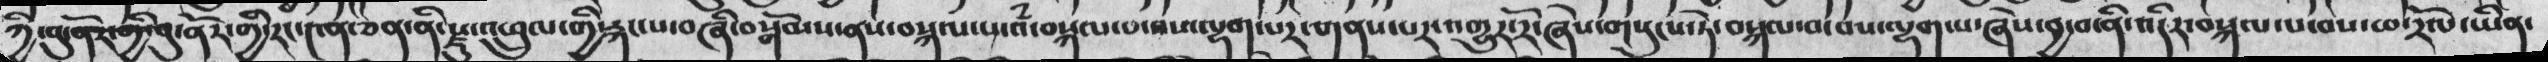ཀྱི་བུ་ནོར་གྱི་བུ་ནོར་གྱི་རང་༤ན་ཅན་ནི་སྫུ་འཕྲུལ་གྱི་རྐང་པ་བཞི་བསྒོམས་ནས་བསྐལ་པ་འཾ་བསྐལ་པ་བས་ལྷག་པར་གནས་པར་འགྱུར་རོ་ཞེས་གསུངས་ཏེ་བསྐལ་བ་བས་ལྷག་པ་ཞེས་བྱ་བ་ནི་འདིར་བསྐལ་པ་བས་ཕ་རོལ་ཡིན་
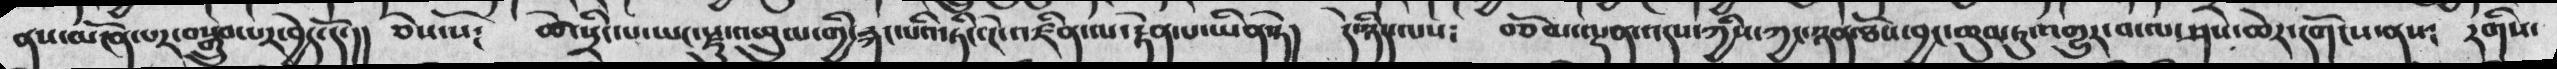ནས་མངོན་པར་བསྒྲུབ་པར་བྱེད་དོ་།། ཅེས་སོ༴  ཚེ་སྲིང་པ་ཡང་སྫུ་འཕྲུལ་གྱི་རྐང་པའི་ཏིང་ངེ་འཛིན་ལ་རྟེན་པ་ཡིན་ཏེ།  དེ་ཉིད་ལས༴  བཅོམ་ལྡན་འདས་ཀྱིས་ཀྱང་ཉན་ཐོས་བྱང་ཆུབ་ཏུ་འགྱུར་བ་ལ་ཤེས་ཆེར་དགོངས་ནས༴ རིགས་
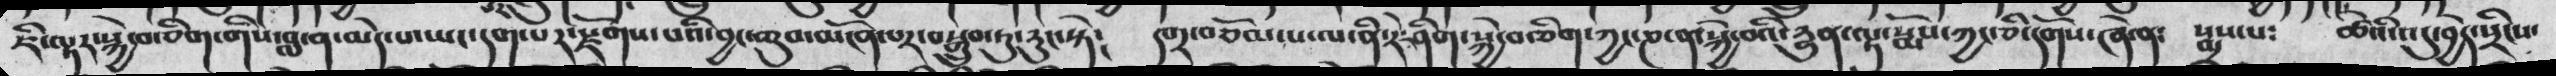ཇི་ལྟར་སྐྱེ་བ་ཅིག་གིས་བླ་ན་མེད་པ་ཡང་དག་པར་སྫོགས་པའི་བྱང་ཆུབ་མངོན་པར་བསྒྲུབ་ཏུ་རུང་སྟེ༴  དགྲ་བཅོམ་པ་ལ་ནི་རེ་ཤིག་སྐྱེ་བ་ཅིག་ཀྱང་ཎ་ན་སྐྱེ་བའི་རྱུན་ལྟ་སྨོས་ཀྱང་ཅི་དགོས་ཞེ་ན༴  སྨྲས་པ༴  ཚེའི་འདུ་བྱེད་སྲིངས་
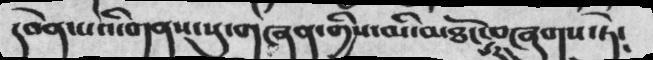དབེན་པའི་གནས་སུ་གཞན་གྱིས་མི་མཐོང་པར་བཞུགས་ཏེ༴
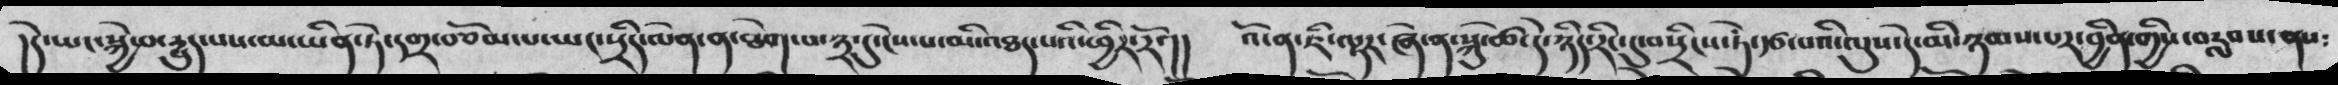།དེ་ཡང་སྐྱེ་བ་རྱུད་པས་མ་ཡིན་ཏེ་དགྲ་བཅོམ་པ་ཡང་སྲིད་ལེན་ན་ཐེག་པ་༣་དུ་ངེས་པ་མི་འཐད་པའི་ཕྱིར་རོ་།།  འོ་ན་ཇི་ལྟར་ཞེ་ན་སྐུ་ཚེ་དེ་ཉིད་རིང་དུ་བསྲིངས་ཏེ་རྩ་པའི་ལུས་དེ་མི་ཉམས་པ་བྱིན་གྱིས་བརླབས་ནས༴
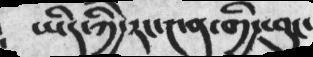ཡིད་ཀྱི་རང་༤ན་གྱི་ཕུང་
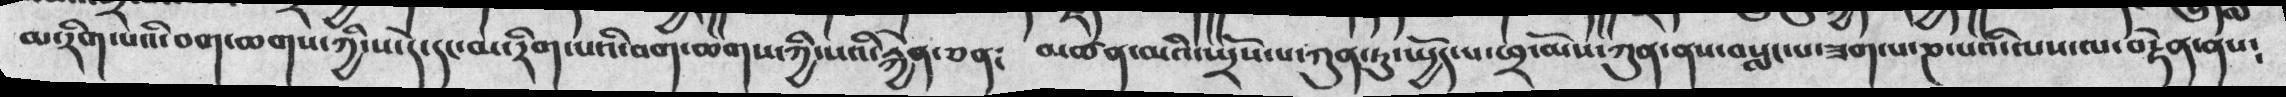མ་རིག་པའི་བག་ཆགས་ཀྱི་ས་དེ་དང་མ་རིག་པའི་བག་ཆགས་ཀྱི་སའི་རྐྱེན་ཅན༴ མཚན་མའི་སྤྲོས་པ་ཀུན་ཏུ་སྤྱོད་པ་ཕྲ་མོས་ཀུན་ནས་བསླང་པ་ཟག་པ་ཎ་པའི་ལས་ལ་བརྟེན་ནས༴
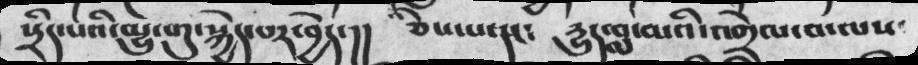སྲིད་པའི་མྱུ་གུ་སྐྱེད་པར་བྱེད་།། ཅེས་པ་དང༴ རྱུད་བླ་མའི་འགྲེལ་བ་ལས་
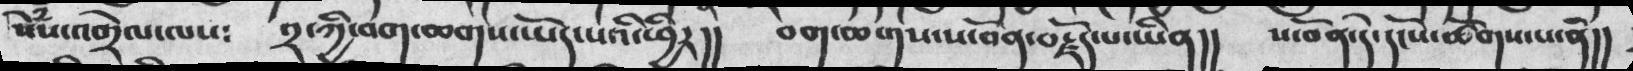སེཾས་འགྲེལ་ལས༴  ༢་ཀྱི་བག་ཆགས་ཡོད་པའི་ཕྱིར།།  བག་ཆགས་ས་བོན་བརྗོད་པ་ཡིན།།  ས་བོན་དེ་དངོས་ཚོགས་པ་ནི།།
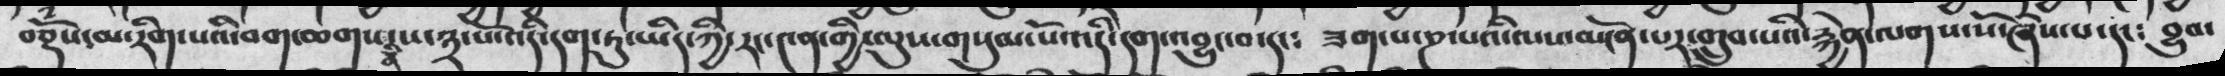བཅྡོས་མ་རི ག་པའི་བག་ཆགས་ནི་ས་༣་པོ་འདི་དག་ཏུ་ཡིད་ཀྱི་རང་༤ན་གྱི་ལུས་གསུམ་པོ་འདི་དག་འབྱུང་བ་དང༴ ཟག་པ་ཎ་པའི་ལས་མངོན་པར་གྲུབ་པའི་རྐྱེན་ལགས་སོ་ཞེས་པ་དང་བྱུབ་
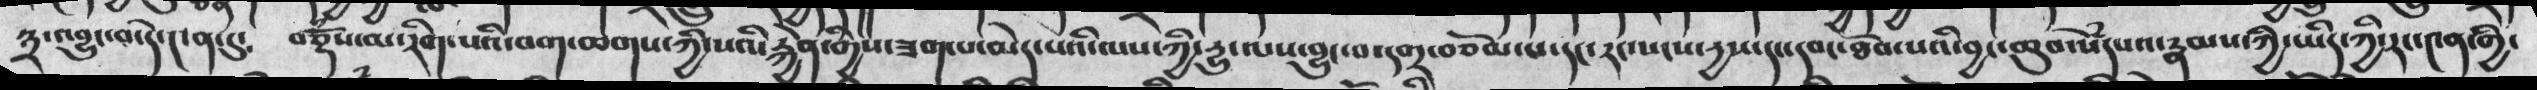༣་འབྱུང་བ་དེ་༤ན་དུ༴  བཅྡོཾས་མ་རིག་པའི་བག་ཆགས་ཀྱི་སའི་རྐྱེན་གྱིས་ཟག་པ་མེད་པའི་ལས་ཀྱི་རྱུ་ལས་བྱུང་བ་དགྲ་བཅོམ་པ་དང་རང་སངས་རྱས་དང་དབང་ཐོབ་པའི་བྱང་ཆུབ་སེཾདཔའ་རྣམས་ཀྱི་ཡིད་ཀྱི་རང་༤ན་གྱི་
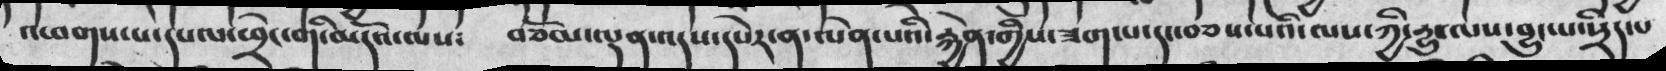འཕགས་པ་དཔལ་ཕྲེང་གོ་མདོའ་ལས༴  བཅོམ་ལྡན་འདས་དཔེར་ན་ལེན་པའི་རྐྱེན་གྱིས་ཟག་པ་དང་བཅས་པའི་ལས་ཀྱི་རྱུ་ལས་བྱུང་པ་སྲིད་པ
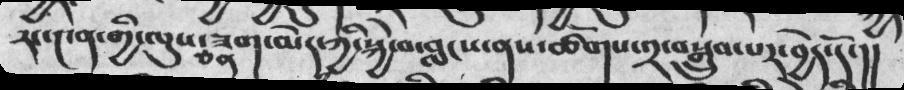རང་༤ན་གྱི་ལུས་ཅན་ཟག་མེད་ཀྱི་སྐྱེ་བ་བླངས་ནས་ཚོགས་༢་བསྒྲུབ་པར་བྱེད་དོ་།།
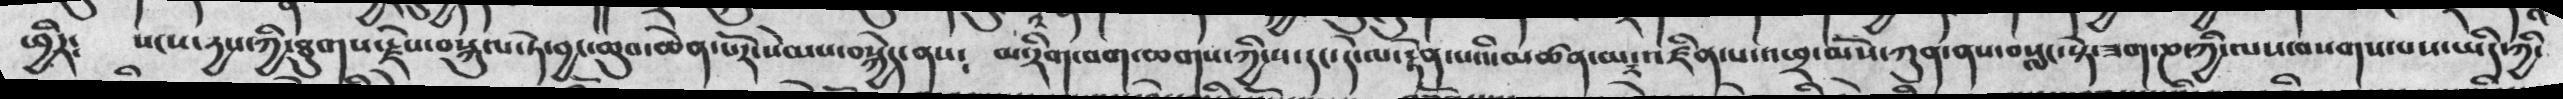ཕྱིར༴ སངས་དྱས་ཀྱི་ཐུགས་རྗེས་བསྐུལ་ཏེ་བྱང་ཆུབ་ཆེན་པོར་སེམས་བསྐྱེད་ནས༴  མ་རིག་བག་ཆགས་ཀྱི་ས་དང་དེ་ལ་རྟེན་པའི་མཚན་མ་འཛིན་པ་འཕྲ་མོས་ཀུན་ནས་བསླང་སྟེ་ཟག་ཎ་ཀྱི་ལས་བསགས་པས་ཡིད་ཀྱི་
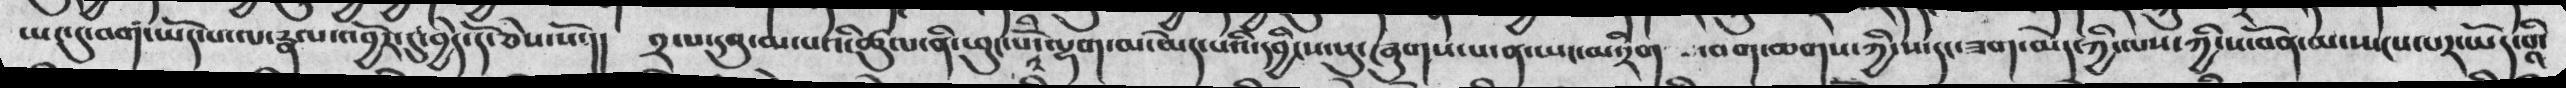ཡང་དུ་བག་ཡོད་པ་ལ་རྣལ་འབྱོར་དུ་བྱེད་དོ་ཅེས་སོ་།།   ༢་པ་དབུ་མ་པའི་ཚུལ་ནི་ཕུང་པོ་ལྷག་མ་མེད་པའི་དབྱིངས་སུ་ཞུགས་པ་ན་ཡང་མ་རིག་བག་ཆགས་ཀྱི་ས་དང་ཟག་མེད་ཀྱི་ས་བོན་མ་སྤངས་པར་ཡོད་པའི་
